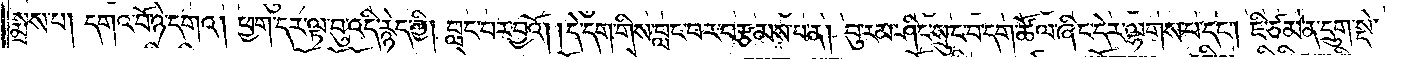སྨྲས་པ། དགའ་བོ་ཉེ་དགའ། ཕྱག་དར་ལྟ་བུ་འདི་རྙེད་ཀྱི། བླང་བར་བྱའོ། །དེ་དག་དིས་བླང་བར་བརྩམས་པ་ན། བུ་རམ་ཤིང་སྲུང་བ་དག་ཚོལ་ཞིང་དེར་ལྷགས་པ་དང༌། ཇི་ཙམ་ན་དྲུག་སྟེ་
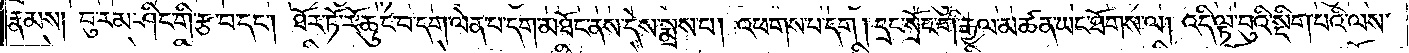རྣམས། བུ་རམ་ཤིང་གི་རྩ་བ་དང༌། ཐོར་ཏོ་རོ་ཆུང་བ་དག་ལེན་པ་དག་མཐོང་ནས་དེས་སྨྲས་པ། འཕགས་པ་དག། དྲང་སྲོང་གི་རྒྱལ་མཚན་ཡང་ཐོགས་ལ། འདི་ལྟ་བུའི་སྡིག་པའི་ལས་
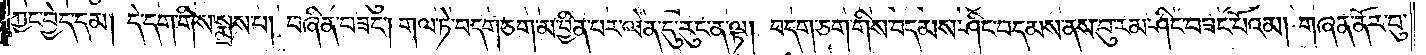ཀྱང་བྱེད་དམ། དེ་དག་གིས་སྨྲས་པ། བཞིན་བཟང༌། གལ་ཏེ་བདག་ཅག་མ་བྱིན་པར་ལེན་དུ་རུང་ན་ལྟ། བདག་ཅག་གིས་བདམས་ཤིང་བདམས་ནས་བུ་རམ་ཤིང་བཟང་པོའམ། གཞན་ནོར་བུ་
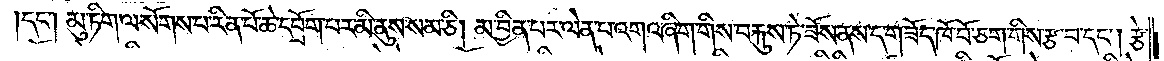དང༌། མུ་ཏིག་ལ་སོགས་པ་རིན་པོ་ཆེ་དབྲོག་པར་མི་ནུས་སམ་ཅི། མ་བྱིན་པར་ལེན་པ་འགའ་ཞིག་གིས་བརྐུས་ཏེ་ཟོས་ནས་ད་གཟོད་ཁོ་བོ་ཅག་གིས་རྩ་བ་དང༌། རྩེ་
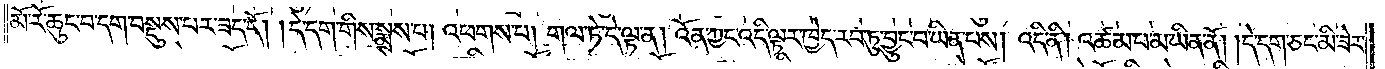མོ་རོ་ཆུང་བ་དག་བསྡུས་པར་ཟད་དོ། །དེ་དག་གིས་སྨྲས་པ། འཕགས་པ། གལ་ཏེ་དེ་ལྟ་ན། འོན་ཀྱང་འདི་ལྟར་ཁྱེད་རབ་ཏུ་བྱུང་བ་ཡིན་པས། འདི་ནི། འཚམ་པ་མ་ཡིན་ནོ། །དེ་དག་ཅང་མི་ཟེར་
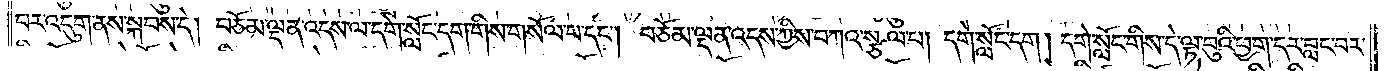བར་འདུག་ནས་སྐབས་དེ། བཅོམ་ལྡན་འདས་ལ་དགེ་སློང་དག་གིས་གསོལ་པ་དང༌། བཅོམ་ལྡན་འདས་ཀྱིས་བཀའ་སྩལ་པ། དགེ་སློང་དག། དགེ་སློང་གིས་དེ་ལྟ་བུའི་ཕྱག་དར་བླང་བར་
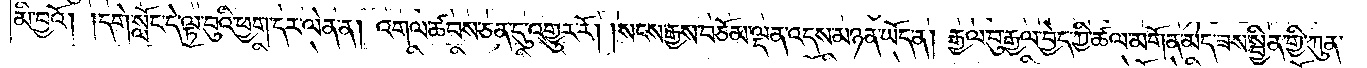མི་བྱའོ། །དགེ་སློང་དེ་ལྟ་བུའི་ཕྱག་དར་ལེན་ན། འགལ་ཚབས་ཅན་དུ་འགྱུར་རོ། །སངས་རྒྱས་བཅོམ་ལྡན་འདས་མཉན་ཡོད་ན། རྒྱལ་བུ་རྒྱལ་བྱེད་ཀྱི་ཚལ་མགོན་མེད་ཟས་སྦྱིན་གྱི་ཀུན་
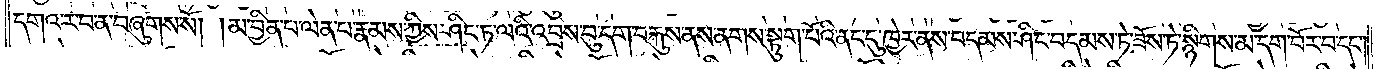དགའ་ར་བ་ན་བཞུགས་སོ། །མ་བྱིན་པ་ལེན་པ་རྣམས་ཀྱིས་ཤིང་ཏ་ལའི་འབྲས་བུ་དག་བརྐུས་ནས་ནགས་སྟུག་པོའི་ནང་དུ་ཁྱེར་ནས་བདམས་ཤིང་བདམས་ཏེ་ཟོས་ཏེ་སྙིགས་མ་དག་བོར་བ་དང༌།
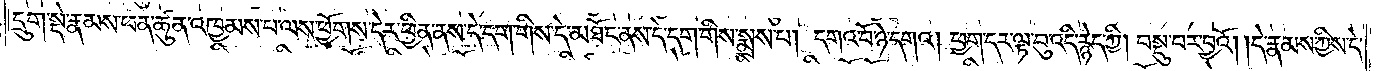དྲུག་སྡེ་རྣམས་ཕན་ཚུན་འཁྱམས་པ་ལས་ཕྱོགས་དེར་ཕྱིན་ནས་དེ་དག་གིས་དེ་མཐོང་ནས་དེ་དག་གིས་སྨྲས་པ། དགའ་བོ་ཉེ་དགའ།ཕྱག་དར་ལྟ་བུ་འདི་རྙེད་ཀྱི། བསྡུ་བར་བྱའོ། །དེ་རྣམས་ཀྱིས་དེ་
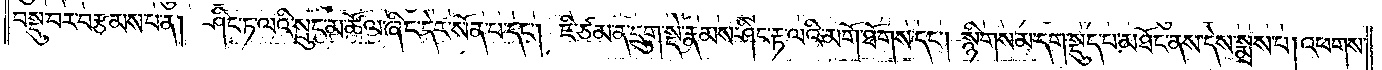བསྡུ་བར་བརྩམས་པ་ན། ཤིང་ཏ་ལའི་སྲུང་མ་ཚོལ་ཞིང་དེར་སོན་པ་དང༌། ཇི་ཙམ་ན་དྲུག་སྡེ་རྣམས་ཤིང་རྟ་ལའི་མགོ་ཐོགས་དང༌། སྙིགས་མ་དག་སྡུད་པ་མཐོང་ནས་དེས་སྨྲས་པ། འཕགས་
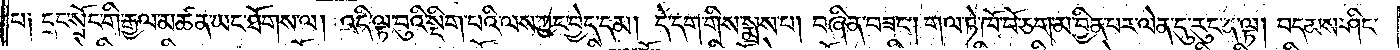པ༑ དྲང་སྲོང་གི་རྒྱལ་མཚན་ཡང་ཐོགས་ལ། འདི་ལྟ་བུའི་སྡིག་པའི་ལས་ཀྱང་བྱེད་དམ།  དེ་དག་གིས་སྨྲས་པ། བཞིན་བཟང༌། གལ་ཏེ་ཁོ་བོ་ཅག་མ་བྱིན་པར་ལེན་དུ་རུང་ན་ལྟ། བདམས་ཤིང་
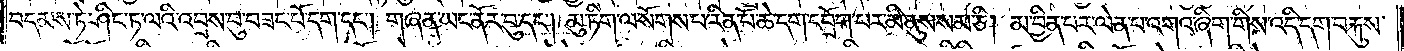བདམས་ཏེ་ཤིང་ཏ་ལའི་འབྲས་བུ་བཟང་པོ་དག་དང༌། གཞན་ཡང་ནོར་བུ་དང༌། མུ་ཏིག་ལ་སོགས་པ་རིན་པོ་ཆེ་དག་དབྲོག་པར་མི་ནུས་སམ་ཅི། མ་བྱིན་པར་ལེན་པ་འགའ་ཞིག་གིས་འདི་དག་བརྐུས་
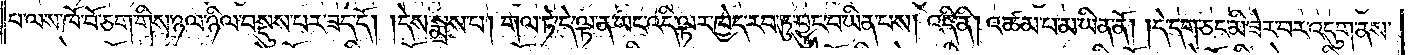པ་ལས་ཁོ་བོ་ཅག་གིས་ཉལ་ཉིལ་བསྡུས་པར་ཟད་དོ། །དེས་སྨྲས་པ། གལ་ཏེ་དེ་ལྟ་ན་ཡང་འདི་ལྟར་ཁྱེད་རབ་ཏུ་བྱུང་བ་ཡིན་པས། འདི་ནི། འཚམ་པ་མ་ཡིན་ནོ། །དེ་དག་ཅང་མི་ཟེར་བར་འདུག་ནས་
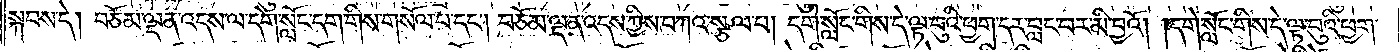སྐབས་དེ། བཅོམ་ལྡན་འདས་ལ་དགེ་སློང་དག་གིས་གསོལ་པ་དང༌། བཅོམ་ལྡན་འདས་ཀྱིས་བཀའ་སྩལ་པ། དགེ་སློང་གིས་དེ་ལྟ་བུའི་ཕྱག་དར་བླང་བར་མི་བྱའོ། །དགེ་སློང་གིས་དེ་ལྟ་བུའི་ཕྱག་
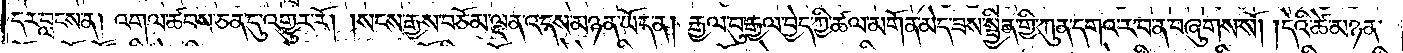དར་བླངས་ན། འགལ་ཚབས་ཅན་དུ་འགྱུར་རོ། །སངས་རྒྱས་བཅོམ་ལྡན་འདས་མཉན་ཡོད་ན། རྒྱལ་བུ་རྒྱལ་བྱེད་ཀྱི་ཚལ་མགོན་མེད་ཟས་སྦྱིན་གྱི་ཀུན་དགའ་ར་བ་ན་བཞུགས་སོ། །དེའི་ཚེ་མཉན་
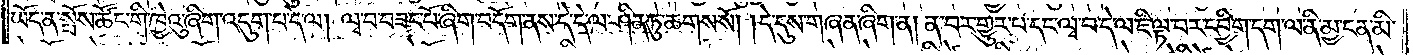ཡོད་ན་སྤོས་ཚོང་གི་ཁྱེའུ་ཞིག་འདུག་པ་དེ་ལ། ལྭ་བ་བཟང་པོ་ཞིག་བདོག་ནས་དེ་དེ་ལ་ཤིན་ཏུ་ཆགས་སོ། །དེ་དུས་གཞན་ཞིག་ན། ན་བར་གྱུར་པ་དང་ལྭ་བ་དེ་ལ་ཇི་ལྟ་བར་དབྱིག་དག་ལ་ནི་མྱ་ངན་མི་
